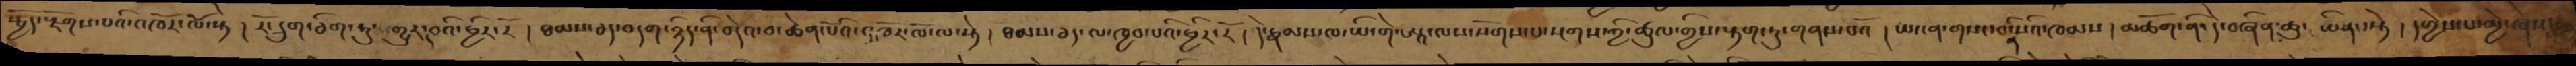སྤྱོད་རྫོགས་པའི་འཁོར་ལོ་སྟེ། རོ་དྲུག་ཅིག་ཏུ་གྱུརད་བའི་ཕྱིར་རོ།  ཐམས་ཅད་བདག་ཉིད་ནི་བདེའ་བ་ཆེན་པོའི་འཁོར་ལོ་ལ་སྟེ།  ཐམས་ཅད་ལ་ཁྱབ་པའི་ཕྱིར་རོ།  དེ་རྣམས་ལ་ཡི་གེ་ཨཱ་ལས་སོགས་པ་སྔགས་ཀྱི་ཚུལ་གྱིས་རྟག་ཏུ་གནས་པའོ། ཡང་ན་གསང་བ་ནི་སའི་ཁམས། མཆོག་ནི་དེ་བཞིན་ཆུ་ཡིན་སྟེ།  དགྱེས་པ་མྱེ་ཞེས་
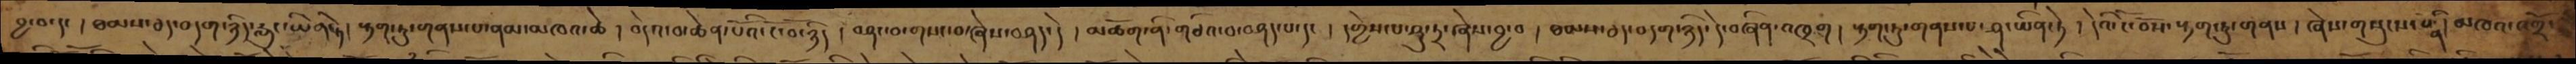བྱ་བ་དང་། ཐམས་ཅད་བདག་ཉིད་རླུང་ཡིན་སྟེ། རྟག་ཏུ་གནས་པ་ནམ་མཁའ་ཆེ།  བདེའ་བ་ཆེན་པོའི་ངོ་བོ་ཉིད །བཤང་བ་གསང་བ་ཞེས་བཤད་དེ །མཆོག་ནི་གཙིའ་བ་བཤད་པ་དང་ །དགྱེས་པ་ཥུ་ཏྲ་ཞེས་བྱ་བ །ཐམས་ཅད་བདག་ཉིད་དེ་བཞིན་འཁྲག །རྟག་ཏུ་གནས་པ་ཤ་ཡིན་ཏེ །དེའི་ངོ་བོས་རྟག་ཏུ་གནས །ཞེས་གསུངས་པ་ནི། མཁའ་འགྲོ་
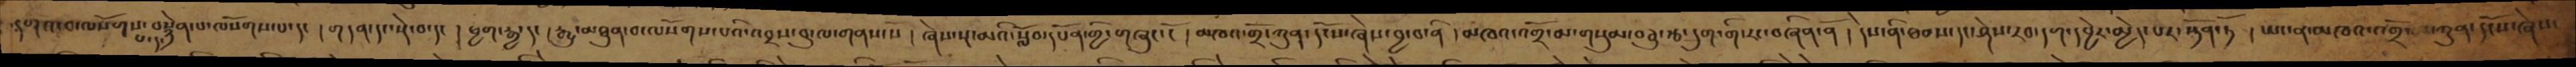དགའ་བ་ལསོགས་པ་དང་བསྙེན་པ་ལསོགས་པ་དང། གདན་དང་སྡེ་བ་དང། ཕྱག་རྒྱ་དང། རྒྱུ་མཐུན་བ་ལསོགས་པའི་འབྲས་བུ་ལ་གནས་སོ། ཞེས་སྔ་མའི་སློབ་དཔོན་གྱི་གཞུང་ངོ། མཁའ་འགྲོ་ཀུན་དངོས་ཞེས་བྱ་བ་ནི། མཁའ་འགྲོ་མ་གསུམ་བཅུ་རྩ་དྲུག་གི་རང་བཞིན་ནོ། དེས་ནི་ཐབས་དང་ཤེས་རབ་དག་དབྱེར་མྱེད་པར་སྟོན་ཏོ། ཡང་ན་མཁའ་འགྲོ་ཀུན་དངོས་ཞེས་
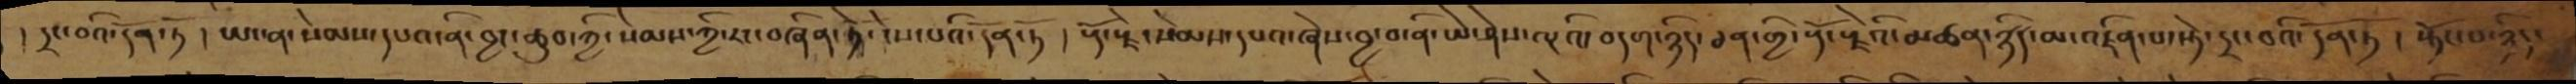།དྲང་བའི་དོན་ཏོ། ཡང་ན་སེམས་དཔའ་ནི་བྱང་ཆུབ་ཀྱི་སེམས་ཀྱི་རང་བཞིན་ཏེ་ངེས་པའི་དོན་ཏོ། རྡོ་རྗེ་སེམས་དཔའ་ཞེས་བྱ་བ་ནི་ཡེ་ཤེས་ལྔའི་བདག་ཉིད་ཅན་གྱི་རྡོ་རྗེའི་མཚན་ཉིད་མ་འཛིན་པ་སྟེ་དྲང་བའི་དོན་ཏོ། སྟོང་པ་ཉིད་
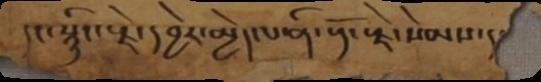དང་སྙིང་རྗེ་དབྱེར་མྱེད་པ་ནི་རྡོ་རྗེ་སེམས་དང
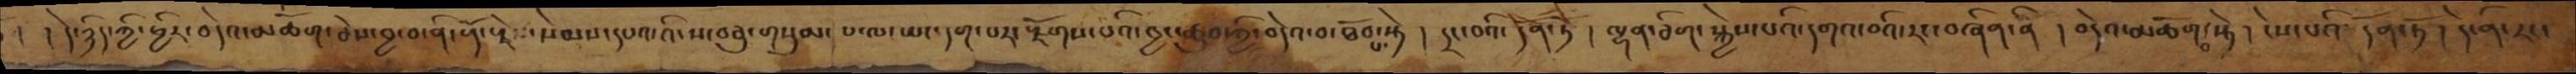། །དེ་ཉིད་ཀྱི་ཕྱིར་བདེའ་མཆོག་ཅེས་བྱ་བ་ནི་རྡོ་རྗེ་སེམས་དཔའ་འི་ས་བཅུ་གསུམ་པ་ལ་ཡང་དག་པར་རྫོགས་པའི་བྱང་ཆུབ་ཀྱི་བདེའ་བ་ཐོབ་པ་སྟེ།  དྲང་བའི་དོན་ཏེ། ལྷན་ཅིག་སྐྱེས་པའི་དགའ་བའི་རང་བཞིན་ནི། བདེའ་མཆོག་སྟེ། ངེས་པའི་དོན་ཏོ། དེ་ནི་རང་
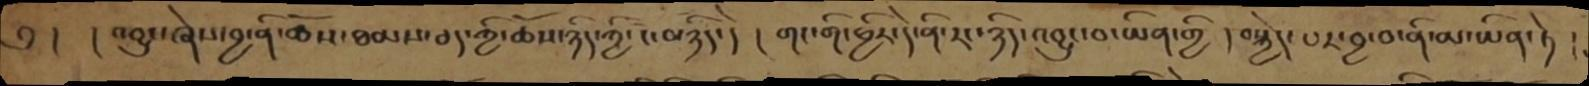༅ ། །འབྱུང་ཞེས་བྱ་ནི་ཆོས་ཐམས་ཅད་ཀྱི་ཆོས་ཉིད་ཀྱི་ངོ་བོ་ཉིད་དེ་། །གང་གི་ཕྱིར་དེ་ནི་རང་ཉིད་འབྱུང་བ་ཡིན་གྱི །བསྐྱེད་པར་བྱ་བ་ནི་མ་ཡིན་ཏེ །
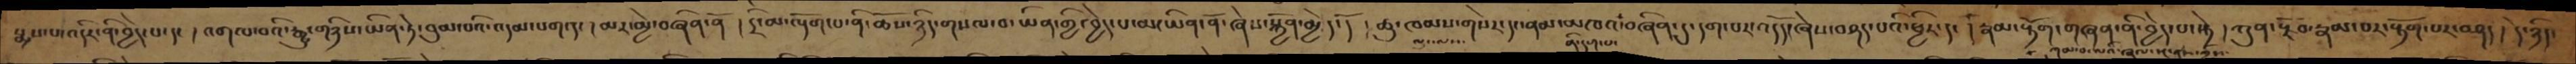སྨྲས་པ་འདིར་ནི་བྱེད་པ་དང། འགལ་བའི་རྒྱུ་གཉིས་ཡིན་ཏེ་བུམ་པའི་འདམ་པག་དང། མར་མྱེ་བཞིན་ནོ། དྲི་མ་ལྡོག་པ་ནི་ཆོས་ཉིད་གསལ་བ་ཡིན་གྱི་བྱེད་པ་མར་ཡིན་ནོ་ཞེས་སྐྱོན་མྱེད་དོ། ཆུ་ཁམས་གསེར་དང་ནམ་མཁའ་བཞིན་དུ་དག་པར་འདོད་ཞེས་བཤད་པའི་ཕྱིར་དང། །རྣམ་རྟོག་གཞན་ནི་བྱེད་པ་སྟེ། ཀུན་རྫོབ་རྣམ་པར་རྟོག་པར་བཤད། དེ་ཉིད་
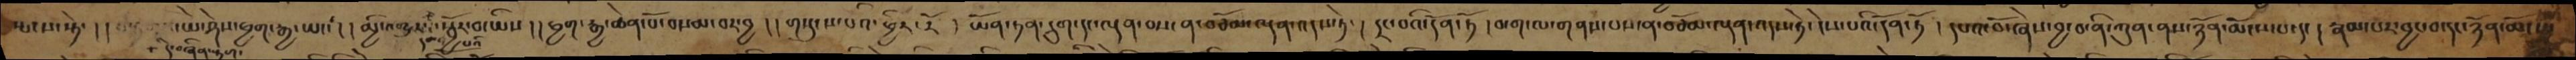སྤངས་ཏེ། །དེ་བཞིན་རྟག་ཡེ་ཤེས་ཕྱག་རྒྱ་ཡང་། །མྱི་འགྱུར་དམ་པའི་སྦྱོར་བ་ཡིས། །ཕྱག་རྒྱ་ཆེན་པོ་བསམ་བར་བྱ། །གསུངས་པའི་ཕྱིར་རོ། ཡོན་ཏན་དྲུག་དང་ལྡན་བས་ན་བཅོམ་ལྡན་འདས་ཏེ། དྲང་བའི་དོན་ཏོ། བདག་ལ་གནས་པས་ན་བཅོམ་ལྡན་འདས་ཏེ་ངེས་པའི་དོན་ཏོ། དཔའ་བོ་ཞེས་བྱ་བ་ནི་ཀུན་ནས་ཉོན་མོངས་པ་དང། རྣམ་པར་བྱང་བ་དང་ཉོན་མོངས་
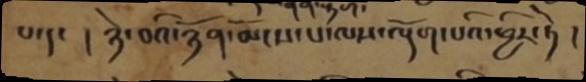པ་དང །ཉེ་བའི་ཉོན་མོངས་པ་ལས་ལྡོག་པའི་ཕྱིར་ཏེ།
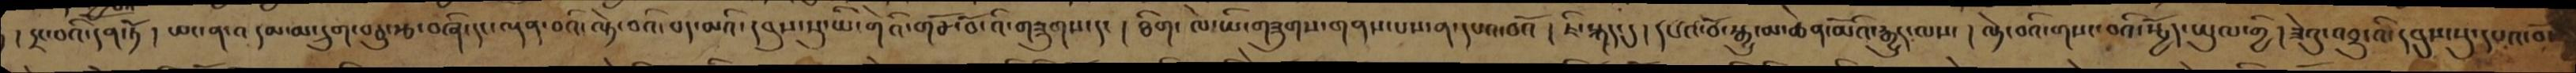། །དྲང་བའི་དོན་ཏོ། ཡང་ན་འདམ་མ་དྲུག་བཅུ་རྩ་བཞི་དང་ལྡན་བའི་ལྟེ་བའི་པད་མའི་དབུས་སུ་ཡི་གེའི་གཙོ་བོ་འི་གཟུགས་དང། ཐིག་ལེ་ཡི་གཟུགས་གནས་པས་ན་དཔའ་བའོ། ཇི་སྐད་དུ། དཔའ་བོ་སྒྱུ་མ་ཆེན་མོའི་རྒྱུད་ལས། ལྟེ་བའི་གསང་བའི་སྤྱོད་ཡུལ་གྱི། ཟེའུ་འབྲུ་འི་དབུས་སུ་དཔའ་བོས
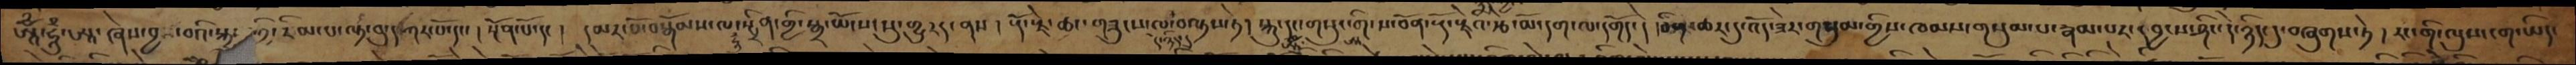ཨཱོྃ་ཧཱུྃ་ཨཱ་ཞེས་བྱ་བའི་སྐྱ་གྱི་རིམ་པ་ལྟ་བུ་དཀར་པོ་དང། སྔོན་པོ་དང། དམར་པོ་བསྒོམས་ལ་སྤྲིན་གྱི་སྒྲ་ཡོངས་སུ་གྱུརད་ནས། རྡོ་རྗེ་ཆང་གཟུངས་ལ་བལྟས་ཏེ། སྐུ་དང་གསུང་གི་ས་བོན་རྡོ་རྗེའི་རྩེ་མོ་དག་ལ་དགོད་དེ། ཅིག་ཆར་དུ་འོད་ཟེར་གསུམ་གྱིས་ཁམས་གསུམ་པ་རྣམ་པར་དབྱངས་ཤིང་དེ་ཉིད་དུ་བཞུགས་ཏེ། རང་གི་ལུས་ངག་ཡིད་
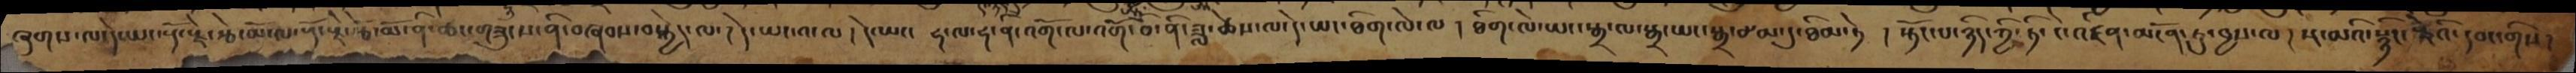ཞུགས་ལ་དེ་ཡང་རྡོ་རྗེ་རྩེ་མོ་ལ་རྡོ་རྗེ་རྩེ་མོ་ནི་ཆང་གཟུངས་ནི་བཞབས་བསྐྱེད་ལ། དེ་ཡང་འ་ལ། དེ་ཡང་ ཧ་ལ་ཧ་ནི་འགོ་ལ་འགོ་བ་ནི་ཟླ་ཚེས་ལ་དེ་ཡང་ཐིག་ལེ་ལ། ཐིག་ལེ་ཡང་སྒྲ་ལ་སྒྲ་ཡང་སྒྲ་ཙམ་དུ་ཐིམ་ཏེ། སྟོང་པ་ཉིད་ཀྱི་ཏི་ངེ་འཛིན་མངོན་ཏུ་བྱས་ལ། སྔ་མའི་སྙིང་རྗེའི་དབང་གིས།
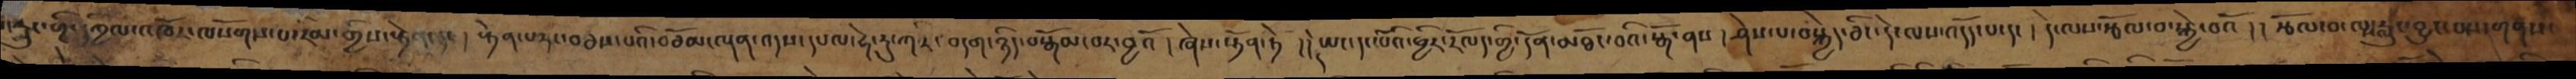།།རླུང་གི་དཀྱིལ་འཁོར་ལསོགས་པ་རིམ་གྱིས་སྟེན་དང། སྟེན་པ་དང་བཅས་པའི་བཅོམ་ལྡན་འདས་དཔལ་ཧེ་རུ་ཀར་བདག་ཉིད་བསྒོམ་བར་བྱའོ། ཞེས་སྟོན་ཏེ། །དེ་ཡང་དང་པོའི་ཕྱི་རོལད་གྱི་དོན་མཐོང་བའི་སྒོ་ནས། ཤེས་པ་བསྐྱེད་ཅིང་དེ་ལས་འདོད་པ་དང། དེ་ལས་རྩོལ་བ་སྐྱེ་བའོ། །རྩོལ་བ་ལས་རླུང་བྱུང་བས་གནས་
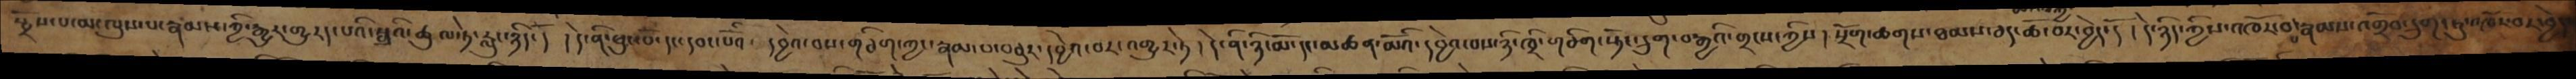སྤྲོས་པ་མ་ལུས་པ་རྣམས་ཀྱི་རྒྱུར་གྱུརད་པའི་སྒྲའི་ཚུལ་རླུང་ཉིད་དོ། དེ་ནི་ཕུང་པ་དང་དབང་པོའི་ དབྱེའ་བས་གཅིག་ཀྱང་རྣམ་པ་བཅུར་དབྱེའ་བར་འགྱུར་ཏེ། དེ་ནི་ཉི་མོ་དང་མཚན་མོའི་དབྱེའ་བས་ཉི་ཁྲི་གཅིག་སྟོང་དྲུག་བརྒྱའི་གྲངས་ཀྱིས། སྲོག་ཆགས་ཐམས་ཅད་ཆོ་བར་བྱེད་དོ། དེ་ཉིད་ཀྱིས་འཁོར་བས་རྣམས་འགྲོའ་དྲུག་ཏུ་འཁོར་བར་བྱེད
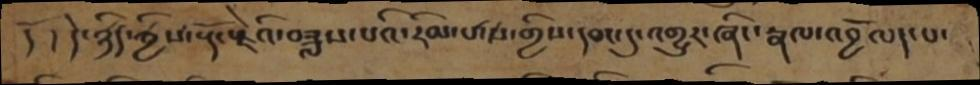དོ  །དེ་ཉིད་ཀྱིས་རྡོ་རྗེའི་བཟླས་པའི་རིམ་པ་ས་གྱིས་དབང་དུ་འགྱུར་ཞིང་རྣལ་འབྱོལད་པ་
